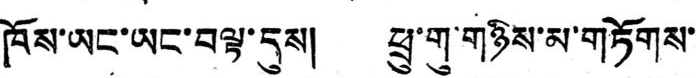ཁོས་ཡང་ཡང་བལྟ་དུས། ཕྲུ་གུ་གཉིས་མ་གཏོགས་
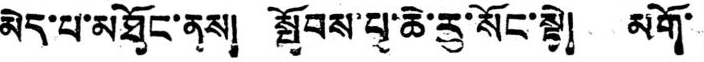མེད་པ་མཐོང་ནས། སྤོབས་པ་ཆེ་རུ་སོང་སྟེ། མགོ་
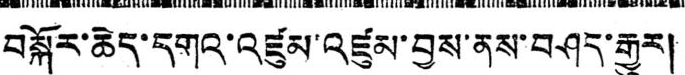བསྐོར་ཆེད་དགའ་འཛུམ་འཛུམ་བྱས་ནས་བཤད་རྒྱུར།
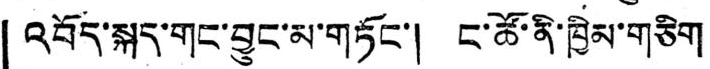「འབོད་སྐད་གང་བྱུང་མ་གཏོང་། ང་ཚོ་ནི་ཁྱིམ་གཅིག
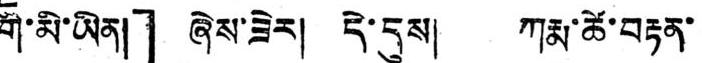གི་མི་ཡིན།」 ཞེས་ཟེར། དེ་དུས། ཀརྨ་ཚེ་བརྟན་
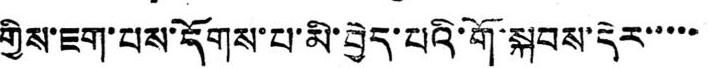གྱིས་ཇག་པས་དོགས་པ་མི་བྱེད་པའི་གོ་སྐབས་དེར་་་་་
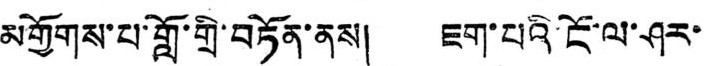མགྱོགས་པ་གློ་གྲི་བཏོན་ནས། ཇག་པའི་ངོ་ལ་ཤར་
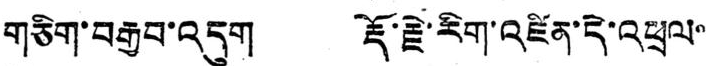གཅིག་བརྒྱབ་འདུག རྡོ་རྗེ་རིག་འཛིན་དེ་འཕྲལ་
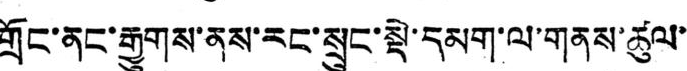གྲོང་ནང་རྒྱུགས་ནས་རང་སྲུང་སྡེ་དམག་ལ་གནས་ཚུལ་
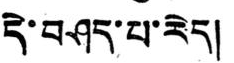དེ་བཤད་པ་རེད།
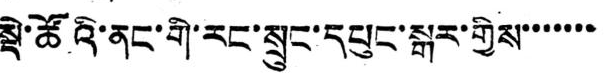སྡེ་ཚོའི་ནང་གི་རང་སྲུང་དཔུང་སྒར་གྱིས་་་་་་་
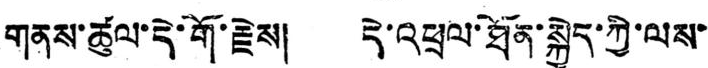གནས་ཚུལ་དེ་གོ་རྗེས། དེ་འཕྲལ་ཐོན་སྐྱེད་ཀྱི་ལས་
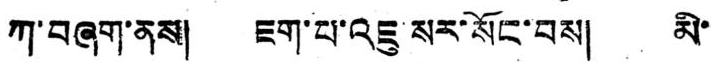ཀ་བཞག་ནས། ཇག་པ་འཇུ་སར་སོང་བས། མི་
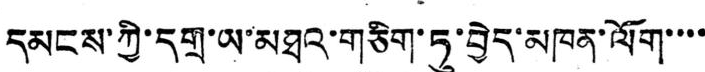དམངས་ཀྱི་དགྲ་ཡ་མཐའ་གཅིག་ཏུ་བྱེད་མཁན་ལོག་་་་
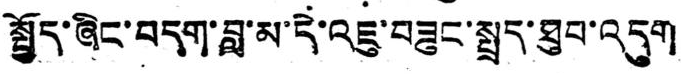སྤྱོད་ཞིང་བདག་བླ་མ་དེ་འཇུ་བཟུང་སྤྲད་ཐུབ་འདུག
